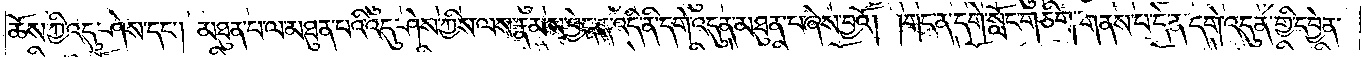ཆོས་ཀྱི་འདུ་ཤེས་དང༌། མཐུན་པ་ལ་མཐུན་པའི་འདུ་ཤེས་ཀྱིས་ལས་རྣམས་བྱེད་ན་འདི་ནི་དགེ་འདུན་མཐུན་པ་ཞེས་བྱའོ། །གང་ན་དགེ་སློང་གཅིག་གནས་པ་དེ་ན་དགེ་འདུན་གྱི་དབྱེན་
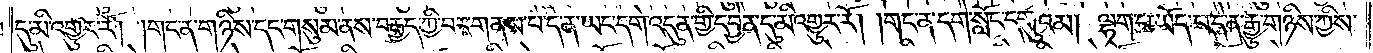དུ་མི་འགྱུར་རོ། །གང་ན་གཉིས་དང་གསུམ་ནས་བརྒྱད་ཀྱི་བར་གནས་པ་དེ་ན་ཡང་དགེ་འདུན་གྱི་དབྱེན་དུ་མི་འགྱུར་རོ། །གང་ན་དགེ་སློང་གུའམ། ལྷག་པ་ཡོད་པ་དེ་ན་རྒྱུ་གཉིས་ཀྱིས་
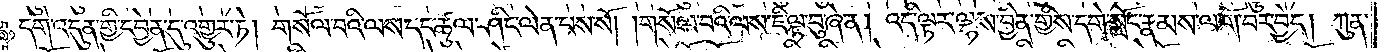དགེ་འདུན་གྱི་དབྱེན་དུ་འགྱུར་ཏེ། གསོལ་བའི་ལས་དང་ཆུལ་ཤིང་ལེན་པས་སོ། །གསོལ་བའི་ལས་ཇི་ལྟ་བུ་ཞེ་ན། འདི་ལྟར་ལྷས་བྱིན་གྱིས་དགེ་སློང་རྣམས་ལ་གོ་བར་བྱེད། ཀུན་
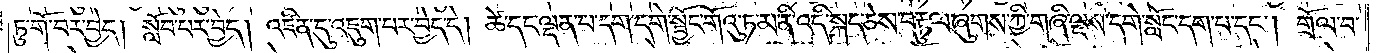ཏུ་གོ་བར་བྱེད། སློབ་པར་བྱེད། འཛིན་དུ་འཇུག་པར་བྱེད་དེ། ཚེ་དང་ལྡན་པ་དག་དགེ་སྦྱོང་གོའུ་ཏ་མ་ནི་འདི་སྐད་ཅེས་བརྟུལ་ཞུགས་ཀྱི་གཞི་ལྔས་དགེ་སློང་དག་པ་དང༌། གྲོལ་བ་
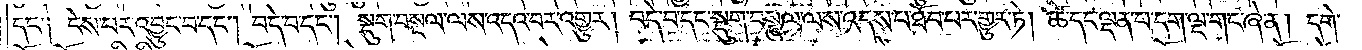དང༌། ངེས་པར་འབྱུང་བ་དང༌། བདེ་བ་དང༌། སྡུག་བསྔལ་ལས་འདའ་བར་འགྱུར། བདེ་བ་དང་སྡུག་བསྔལ་ལས་འདས་པ་ཐོབ་པར་གྱུར་ཏེ། ཚེ་དང་ལྡན་པ་དག་ལྔ་གང་ཞེ་ན། དགེ་
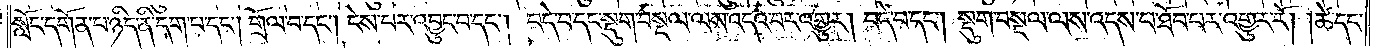སློང་དགོན་པ་ཉིད་ནི་དག་པ་དང༌། གྲོལ་བ་དང༌། ངེས་པར་འབྱུང་བ་དང༌། བདེ་བ་དང་སྡུག་བསྔལ་ལས་འདའ་བར་འགྱུར། བདེ་བ་དང༌། སྡུག་བསྔལ་ལས་འདས་པ་ཐོབ་པར་འགྱུར་རོ། །ཚེ་དང་
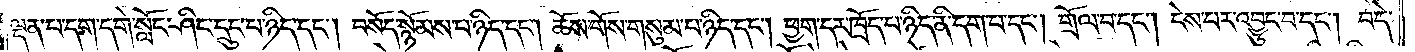ལྡན་པ་དག་དགེ་སློང་ཤིང་དྲུང་པ་ཉིད་དང༌། བསོད་སྙོམས་པ་ཉིད་དང༌། ཆོས་གོས་གསུམ་པ་ཉིད་དང༌། ཕྱག་དར་ཁྲོད་པ་ཉིད་ནི་དག་པ་དང༌། གྲོལ་བ་དང༌། ངེས་པར་འབྱུང་བ་དང༌། བདེ་
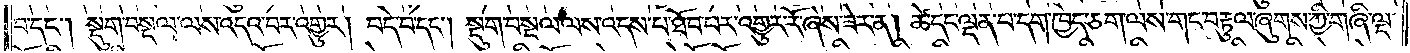བ་དང༌། སྡུག་བསྔལ་ལས་འདའ་བར་འགྱུར། བདེ་བ་དང༌། སྡུག་བསྔལ་ལས་འདས་པ་ཐོབ་པར་འགྱུར་རོ་ཞེས་ཟེར་ན། ཚེ་དང་ལྡན་པ་དག་ཁྱེད་ཅག་ལས་གང་བརྟུལ་ཞུགས་ཀྱི་གཞི་ལྔ་
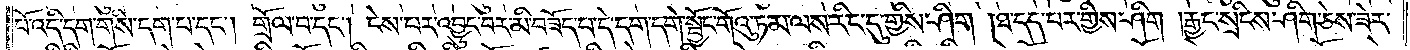པོ་འདི་དག་གིས་དག་པ་དང༌། གྲོལ་བ་དང༌། ངེས་པར་འབྱུང་བར་མི་བཟོད་པ་དེ་དག་དགེ་སྦྱོང་གོའུ་ཏམ་ལས་རིང་དུ་གྱིས་ཤིག །ཐ་དད་པར་གྱིས་ཤིག །རྒྱང་སྲིངས་ཤིག་ཅེས་ཟེར་
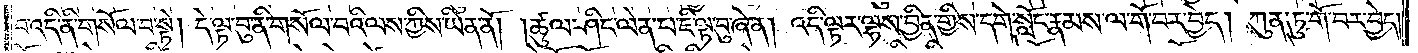བ་འདི་ནི་གསོལ་བ་སྟེ། དེ་ལྟ་བུ་ནི་གསོལ་བའི་ལས་ཀྱིས་ཡིན་ནོ། །ཚུལ་ཤིང་ལེན་པ་ཇི་ལྟ་བུ་ཞེ་ན། འདི་ལྟ་ལྷས་བྱིན་གྱིས་དགེ་སློང་རྣམས་ལ་གོ་བར་བྱེད། ཀུན་ཏུ་གོ་བར་བྱེད།
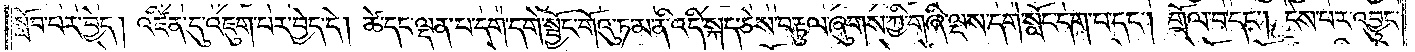སློབ་པར་བྱེད། འཛིན་དུ་འཇུག་པར་བྱེད་དེ། ཚེ་དང་ལྡན་པ་དག་དགེ་སྦྱོང་གོའུ་ཏ་མ་ནི་འདི་སྐད་ཅེས་བརྟུལ་ཞུགས་ཀྱི་གཞི་ལྔས་དགེ་སློང་དག་པ་དང༌། གྲོལ་པ་དང༌། ངེས་པར་འབྱུང་
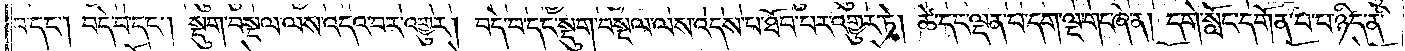བ་དང༌། བདེ་བ་དང༌། སྡུག་བསྔལ་ལས་འདའ་བར་འགྱུར། བདེ་བ་དང་སྡུག་བསྔལ་ལས་འདས་པ་ཐོབ་པར་འགྱུར་ཏེ། ཚེ་དང་ལྡན་པ་དག་ལྔ་གང་ཞེ་ན། དགེ་སློང་དགོན་པ་པ་ཉིད་ནི་
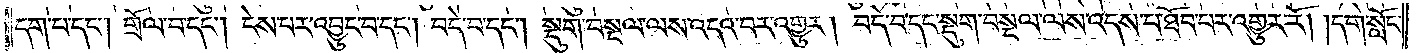དག་པ་དང༌། གྲོལ་བ་དང༌། ངེས་པར་འབྱུང་བ་དང༌། བདེ་བ་དང༌། སྡུག་བསྔལ་ལས་འདའ་བར་འགྱུར། བདེ་བ་དང་སྡུག་བསྔལ་ལས་འདས་པ་ཐོབ་པར་འགྱུར་རོ། །དགེ་སློང་
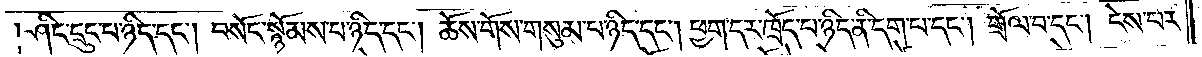ཤིང་དྲུང་པ་ཉིད་དང༌། བསོད་སྙོམས་པ་ཉིད་དང༌། ཆོས་གོས་གསུམ་པ་ཉིད་དང༌། ཕྱག་དར་ཁྲོད་པ་ཉིད་ནི་དག་པ་དང༌། གྲོལ་བ་དང༌། ངེས་པར་
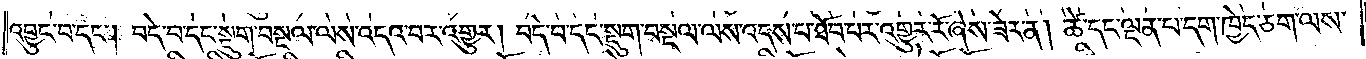འབྱུང་བ་དང༌། བདེ་བ་དང་སྡུག་བསྔལ་ལས་འདའ་བར་འགྱུར། བདེ་བ་དང་སྡུག་བསྔལ་ལས་འདས་པ་ཐོབ་པར་འགྱུར་རོ་ཞེས་ཟེར་ན། ཚེ་དང་ལྡན་པ་དག་ཁྱེད་ཅག་ལས་
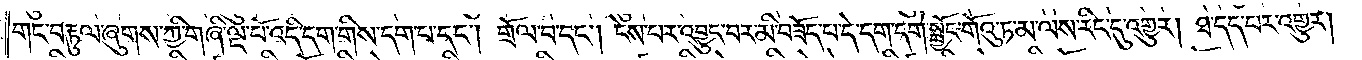གང་བརྟུལ་ཞུགས་ཀྱི་གཞི་ལྔ་པོ་འདི་དག་གིས་དག་པ་དང༌། གྲོལ་བ་དང༌། ངེས་པར་འབྱུང་བར་མི་བཟོད་པ་དེ་དག་དགེ་སྦྱོང་གོའུ་ཏ་མ་ལས་རིང་དུ་འགྱུར། ཐ་དད་པར་འགྱུར།
